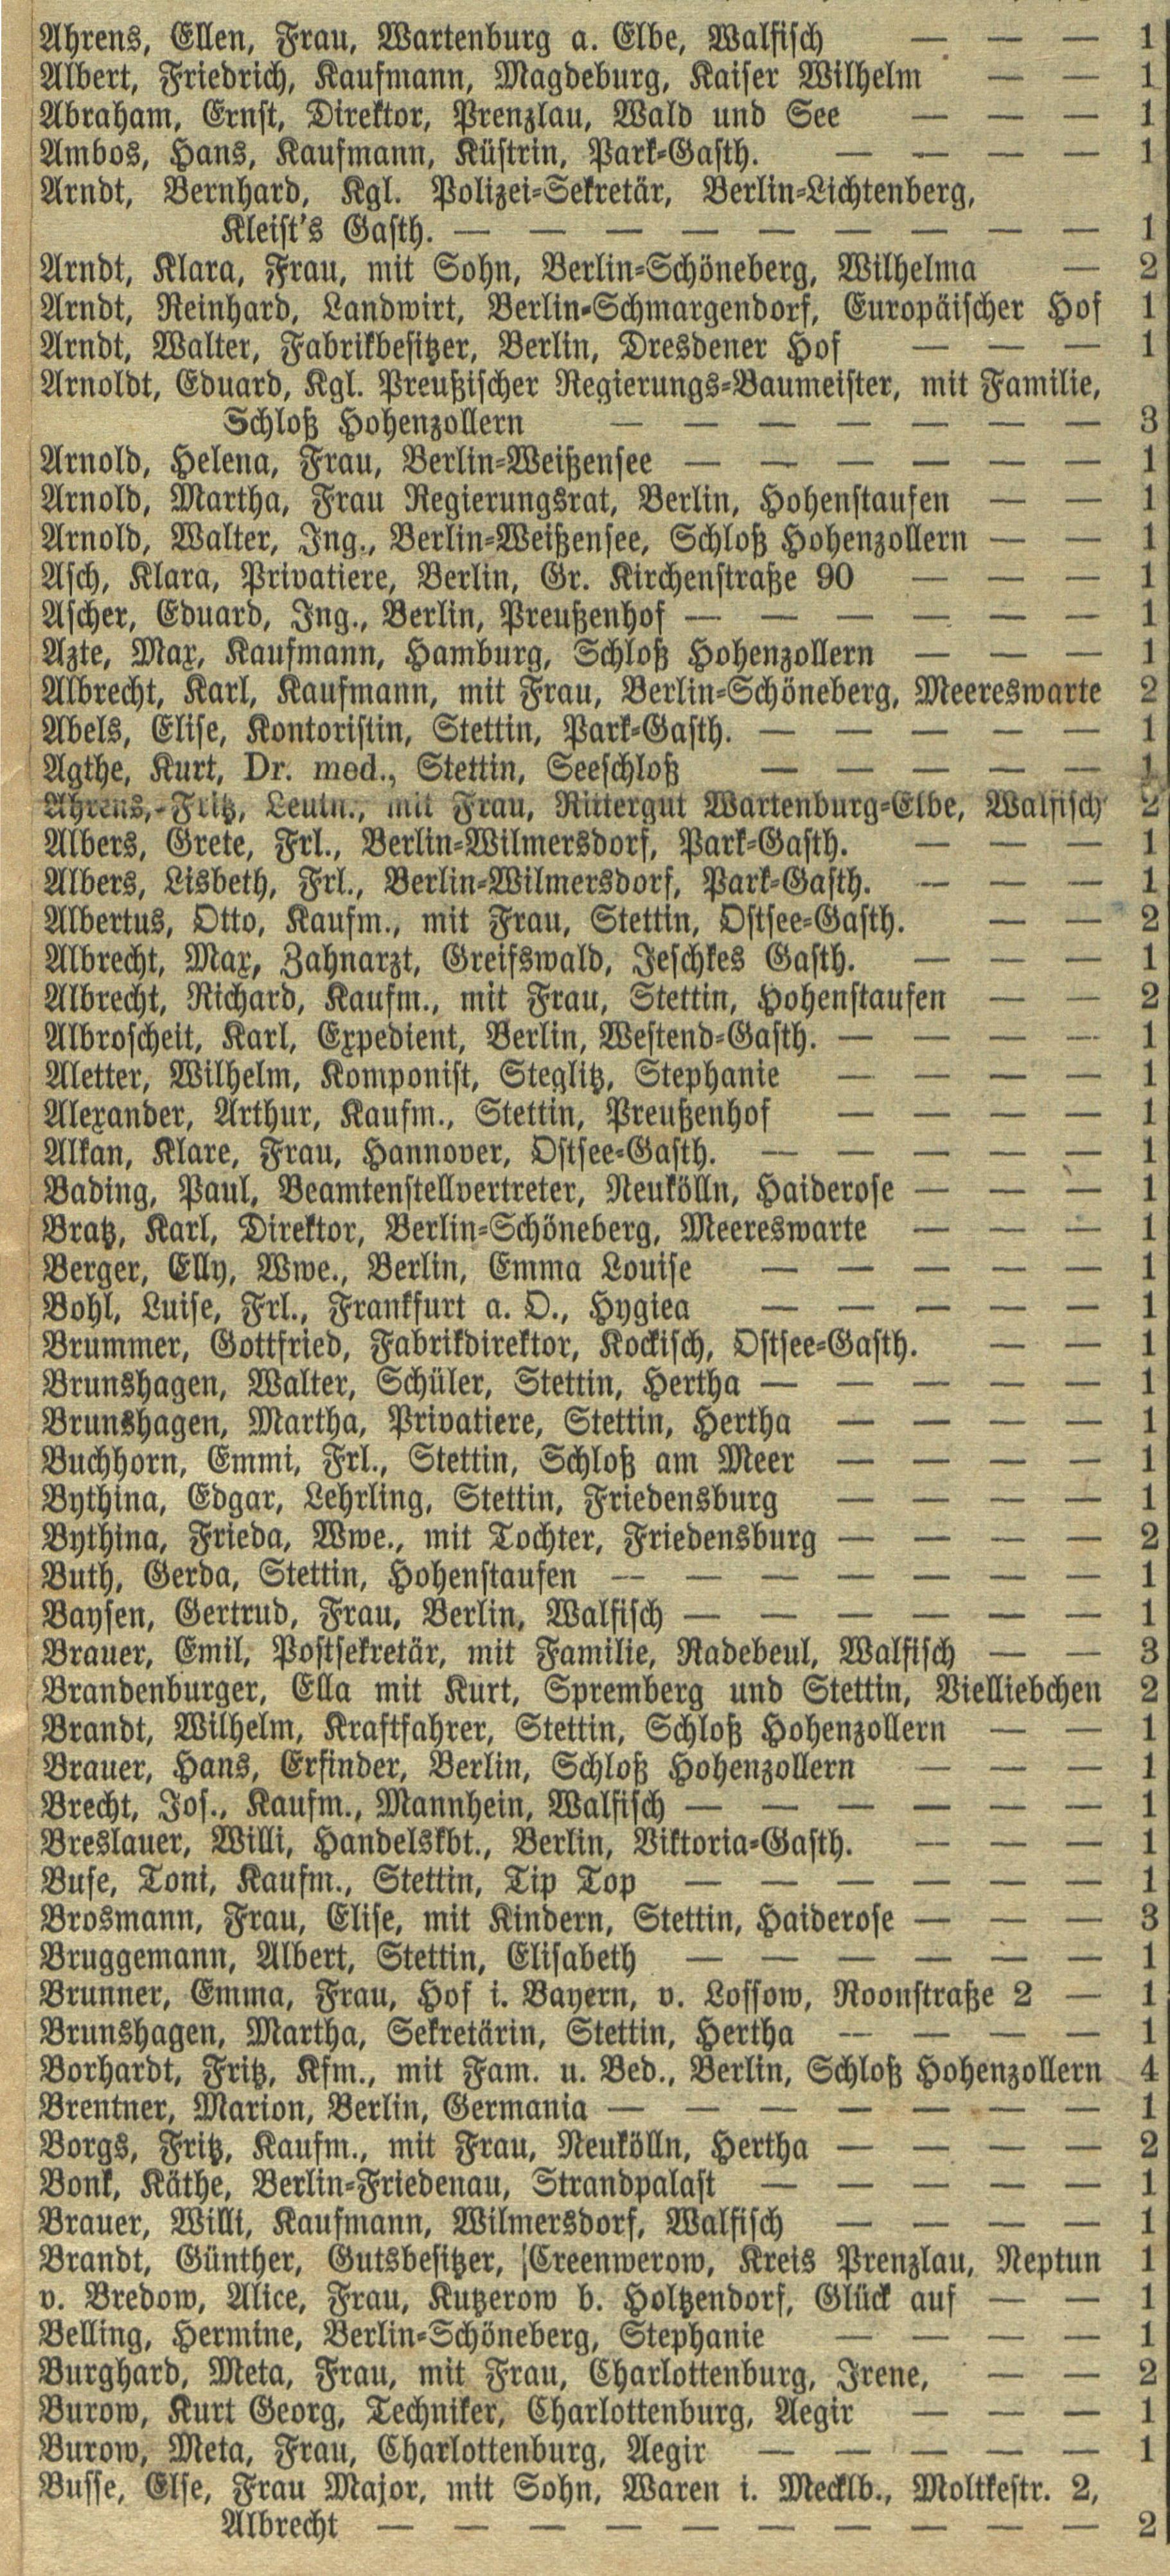Ahrens, Ellen, Frau, Wartenburg a. Elbe, Walfisch | 1
Albert, Friedrich, Kaufmann, Magdeburg, Kaiser Wilhelm | 1
Abraham, Ernst, Direktor, Prenzlau, Wald und See | 1
Ambos, Hans, Kaufmann, Küstrin, Park=Gasth. | 1
Arndt, Bernhard, Kgl. Polizei=Sekretär, Berlin=Lichtenberg,
Kleist's Gasth. | 1
Arndt, Klara, Frau, mit Sohn, Berlin=Schöneberg, Wilhelma | 2
Arndt, Reinhard, Landwirt, Berlin=Schmargendorf, Europäischer Hof | 1
Arndt, Walter, Fabrikbesitzer, Berlin, Dresdener Hof | 1
Arnoldt, Eduard, Kgl. Preußischer Regierungs=Baumeister, mit Familie,
Schloß Hohenzollern | 3
Arnold, Helena, Frau, Berlin=Weißensee | 1
Arnold, Martha, Frau Regierungsrat, Berlin, Hohenstaufen | 1
Arnold, Walter, Ing., Berlin=Weißensee, Schloß=Hohenzollern | 1
Asch, Klara, Privatiere, Berlin, Gr. Kirchenstraße 90 | 1
Ascher, Eduard, Ing., Berlin, Preußenhof | 1
Azte, Max, Kaufmann, Hamburg, Schloß Hohenzollern | 1
Albrecht, Karl, Kaufmann, mit Frau, Berlin=Schöneberg, Meereswarte  | 2
Abels, Elise, Kontoristin, Stettin, Park=Gasth. | 1
Agthe, Kurt, Dr. med., Stettin, Seeschloß | 1
Ahrens, Fritz, Leutn., mit Frau, Rittergut Wartenburg=Elbe, Walfisch | 2
Albers, Grete, Frl., Berlin=Wilmersdorf, Park=Gasth. | 1
Albers, Lisbeth, Frl., Berlin=Wilmersdorf, Park=Gasth. | 1
Albertus, Otto, Kaufm., mit Frau, Stettin, Ostsee=Gasth. | 2
Albrecht, Max, Zahnarzt, Greifswald, Jeschkes Gasth. | 1
Albrecht, Richard, Kaufm., mit Frau, Stettin, Hohenstaufen | 2
Albroscheit, Karl, Expedient, Berlin, Westend=Gasth. | 1
Aletter, Wilhelm, Komponist, Steglitz, Stephanie | 1
Alexander, Arthur, Kaufm., Stettin, Preußenhof | 1
Alkan, Klare, Frau, Hannover, Ostsee=Gasth. | 1
Bading, Paul, Beamtenstellvertreter, Neukölln, Haiderose | 1
Bratz, Karl, Direktor, Berlin=Schöneberg, Meereswarte | 1
Berger, Elly, Wwe., Berlin, Emma Louise | 1
Bohl, Luise, Frl., Frankfurt a. O., Hygiea | 1
Brummer, Gottfried, Fabrikdirektor, Kockisch, Ostsee=Gasth. | 1
Brunshagen, Walter, Schüler, Stettin, Hertha | 1
Brunshagen, Martha, Privatiere, Stettin, Hertha | 1
Buchhorn, Emmi, Frl., Stettin, Schloß am Meer | 1
Bythina, Edgar, Lehrling, Stettin, Friedensburg | 1
Bythina, Frieda, Wwe., mit Tochter, Friedensburg | 2
Buth, Gerda, Stettin, Hohenstaufen | 1
Baysen, Gertrud, Frau, Berlin, Walfisch | 1
Brauer, Emil, Postsekretär, mit Familie, Radebeul, Walfisch | 3
Brandenburger, Ella mit Kurt, Spremberg und Stettin, Vielliebchen | 2
Brandt, Wilhelm, Kraftfahrer, Stettin, Schloß Hohenzollern | 1
Brauer, Hans, Erfinder, Berlin, Schloß Hohenzollern | 1
Brecht, Jos., Kaufm., Mannhein, Walfisch | 1
Breslauer, Willi, Handelskbt., Berlin, Viktoria=Gasth. | 1
Buse, Toni, Kaufm., Stettin, Tip Top | 1
Brosmann, Frau, Elise, mit Kindern, Stettin, Haiderose | 3
Bruggemann, Albert, Stettin, Elisabeth | 1
Brunner, Emma, Frau, Hof i. Bayern, v. Lossow, Roonstraße 2 | 1
Brunshagen, Martha, Sekretärin, Stettin, Hertha | 1
Borhardt, Fritz, Kfm., mit Fam. u. Bed., Berlin, Schloß Hohenzollern | 4
Brentner, Marion, Berlin, Germania | 1
Borgs, Fritz, Kaufm., mit Frau, Neukölln, Hertha | 2
Bonk, Käthe, Berlin=Friedenau, Strandpalast | 1
Brauer, Willi, Kaufmann, Wilmersdorf, Walfisch | 1
Brandt, Günther, Gutsbesitzer, Creenwerow, Kreis Prenzlau, Neptun | 1
v. Bredow, Alice, Frau, Kutzerow b. Holtzendorf, Glück auf | 1
Belling, Hermine, Berlin=Schöneberg, Stephanie | 1
Burghard, Meta, Frau, mit Frau, Charlottenburg, Irene,  | 2
Burow, Kurt Georg, Techniker, Charlottenburg, Aegir | 1
Burow, Meta, Frau, Charlottenburg, Aegir | 1
Busse, Else, Frau Major, mit Sohn, Waren i. Mecklb., Moltkestr. 2,
Albrecht | 2
